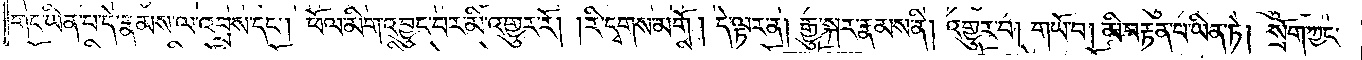གང་ཡིན་པ་དེ་རྣམས་ལ་འབྲས་དང༌། ཕོལ་མིག་འབྱུང་བར་མི་འགྱུར་རོ། །རི་དྭགས་མགོ། དེ་ལྟར་ན། རྒྱུ་སྐར་རྣམས་ནི། འགྱུར་བ། གཡོ་བ། མི་བརྟན་པ་ཡིན་ཏེ། སྲོག་ཀྱང་
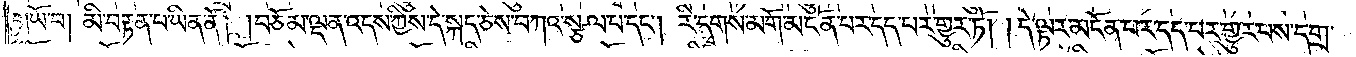གཡོ་བ། མི་བརྟན་པ་ཡིན་ནོ། །བཅོམ་ལྡན་འདས་ཀྱིས་དེ་སྐད་ཅེས་བཀའ་སྩལ་པ་དང༌། རི་དྭགས་མགོ་མངོན་པར་དད་པར་གྱུར་ཏོ། །དེ་ལྟར་མངོན་པར་དད་པར་གྱུར་པས་དགྲ་
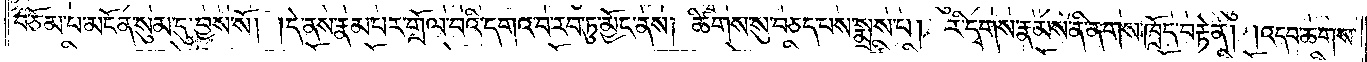བཅོམ་པ་མངོན་སུམ་དུ་བྱས་སོ། །དེ་ནས་རྣམ་པར་གྲོལ་བའི་དགའ་བ་རབ་ཏུ་མྱོང་ནས། ཚིགས་སུ་བཅད་པས་སྨྲས་པ། རི་དྭགས་རྣམས་ནི་ནགས་ཁྲོད་བརྟེན། །འདབ་ཆགས་
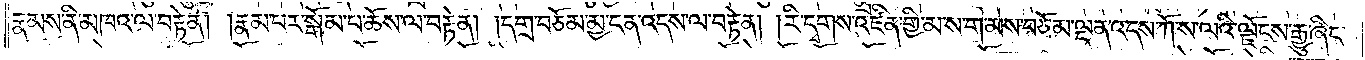རྣམས་ནི་མཁའ་ལ་བརྟེན། །རྣམ་པར་སྒོམ་པ་ཆོས་ལ་བརྟེན། །དགྲ་བཅོམ་མྱ་ངན་འདས་ལ་བརྟེན། །རི་དྭགས་འཛིན་གྱི་མ་ས་ག་མས་བཅོམ་ལྡན་འདས་ཀོ་ས་ལའི་ལྗོངས་རྒྱུ་ཞིང་
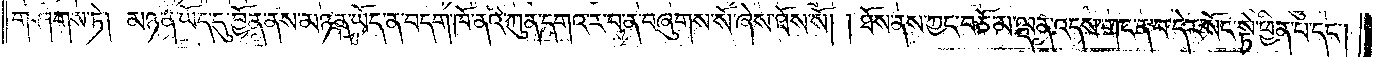གཤེགས་ཏེ། མཉན་ཡོད་དུ་བྱོན་ནས་མཉན་ཡོད་ན་བདག་ཁོ་ནའི་ཀུན་དགའ་ར་བ་ན་བཞུགས་པོ་ཞེས་ཐོས་སོ། །ཐོས་ནས་ཀྱང་བཅོམ་ལྡན་འདས་གང་ན་བ་དེར་སོང་སྟེ་ཕྱིན་པ་དང༌།
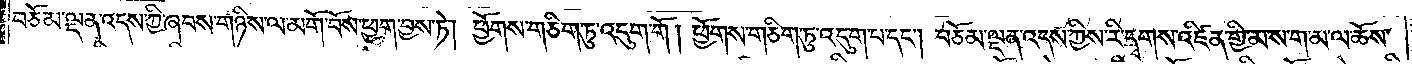བཅོམ་ལྡན་འདས་ཀྱི་ཞབས་གཉིས་ལ་མགོ་བོས་ཕྱག་བྱས་ཏེ། ཕྱོགས་གཅིག་ཏུ་འདུག་གོ །ཕྱོགས་གཅིག་ཏུ་འདུག་པ་དང༌། བཅོམ་ལྡན་འདས་ཀྱིས་རི་དྭགས་འཛིན་གྱི་མ་ས་ག་མ་ལ་ཆོས་
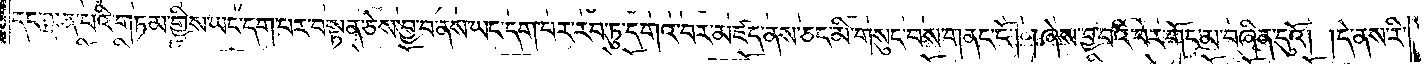དང་ལྡན་པའི་གཏམ་གྱིས་ཡང་དག་པར་བསྟན་ཅེས་བྱ་བ་ནས་ཡང་དག་པར་རབ་ཏུ་དགའ་བར་མཛད་ནས་ཅང་མི་གསུང་བས་གནང་ངོ༌། །ཞེས་བྱ་བའི་བར་གོང་མ་བཞིན་དུའོ། །དེ་ནས་རི་
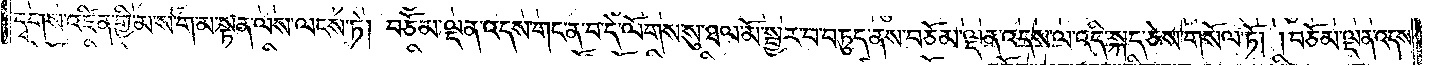དྭགས་འཛིན་གྱི་མ་ས་ག་མ་སྟན་ལས་ལངས་ཏེ། བཅོམ་ལྡན་འདས་གང་ན་བ་དེ་ལོགས་སུ་ཐལ་མོ་སྦྱར་བ་བཏུད་ནས་བཅོམ་ལྡན་འདས་ལ་འདི་སྐད་ཅེས་གསོལ་ཏོ། །བཅོམ་ལྡན་འདས་
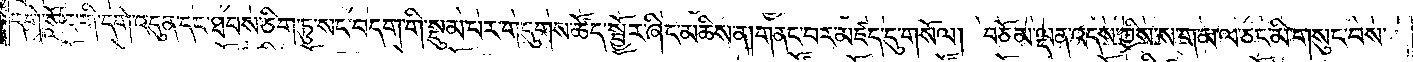དགེ་སློང་གི་དགེ་འདུན་དང་ཐབས་ཅིག་ཏུ་སང་བདག་གི་སྡུམ་པར་གདུགས་ཚོད་སྦྱོར་ཞིང་མཆིས་ན། གནང་བར་མཛད་དུ་གསོལ། བཅོམ་ལྡན་འདས་ཀྱིས་ས་ག་མ་ལ་ཅང་མི་གསུང་བས་
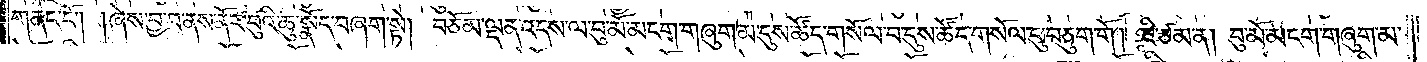གནང་ངོ༌། །ཞེས་བྱ་བ་ནས་ནོར་བུའི་ཆུ་སྣོད་བཞག་སྟེ། བཅོམ་ལྡན་འདས་ལ་བུ་མོ་མངག་གཞུག་མ་དུས་ཚོད་གསོལ་བ་དུས་ཚོད་གསོལ་དུ་བཅུག་གོ །ཇི་ཙམ་ན། བུ་མོ་མངག་གཞུག་མ་
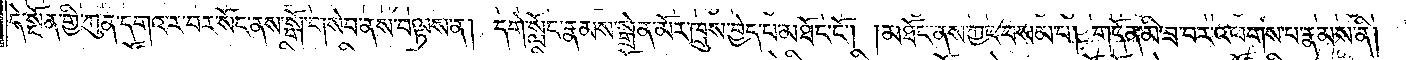དེ་སྔོན་གྱི་ཀུན་དགའ་ར་བར་སོང་ནས་སྒོ་གསེབ་ནས་བལྟས་ན། དགེ་སློང་རྣམས་སྒྲེན་མོར་ཁྲུས་བྱེད་པ་མཐོང་ངོ༌། །མཐོང་ནས་ཀྱང་བསམ་པ། གདོན་མི་ཟ་བར་འཕགས་པ་རྣམས་ནི།
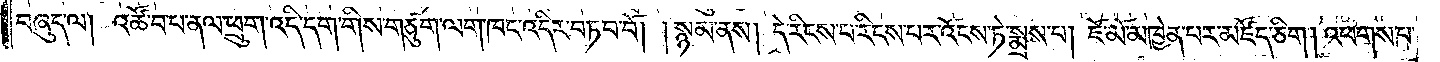བཞུད་ལ། འཚོ་བ་པ་ནལ་ཕྲུག་འདི་དག་གིས་གཙུག་ལག་ཁང་འདིར་བཏབ་བོ། །སྙམ་ནས། དེ་རིངས་པའི་ངས་པར་འོངས་ཏེ་སྨྲས་པ། ཇོ་མོ་མཁྱེན་པར་མཛོད་ཅིག །འཕགས་པ་
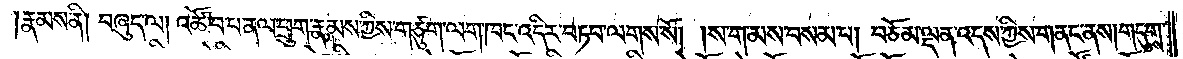།རྣམས་ནི། བཞུད་ལ། འཚོ་བ་པ་ནལ་ཕྲུག་རྣམས་ཀྱིས་གཙུག་ལག་ཁང་འདིར་བཏབ་ལགས་སོ། །ས་ག་མས་བསམ་པ། བཅོམ་ལྡན་འདས་ཀྱིས་གནང་ནས། གདུགས་
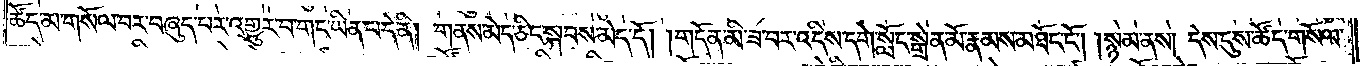ཚོད་མ་གསོལ་བར་བཞུད་པར་འགྱུར་བ་གང་ཡིན་པ་དེ་ནི། གནས་མེད་ཅིང་སྐབས་མེད་དོ། །གདོན་མི་ཟ་བར་འདིས་དགེ་སློང་སྒྲེན་མོ་རྣམས་མཐོང་ངོ༌། །སྙམ་ནས། དེས་དུས་ཚོད་གསོལ་
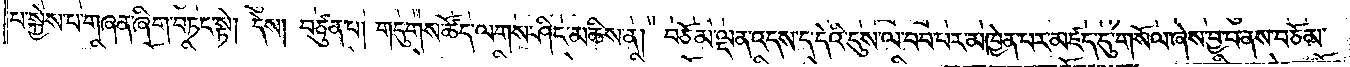པ་སྐྱེས་པ་གཞན་ཞིག་བཏང་སྟེ། དེས། བཙུན་པ། གདུགས་ཚོད་ལགས་ཤིང་མཆིས་ན། བཅོམ་ལྡན་འདས་ད་དེའི་དུས་ལ་བབ་པར་མཁྱེན་པར་མཛད་དུ་གསོལ་ཞེས་བྱ་བ་ནས་བཅོམ་
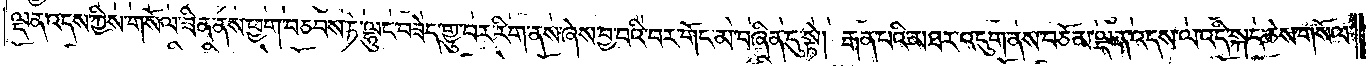ལྡན་འདས་ཀྱིས་གསོལ་ཟིན་ནས་ཕྱག་བཅབས་ཏེ་ལྷུང་བཟེད་གྱུ་བར་རིག་ནས་ཞེས་བྱ་བའི་བར་གོང་མ་བཞིན་དུ་སྟེ། རྒན་པའི་མཐར་འདུག་ནས་བཅོམ་ལྡན་འདས་ལ་འདི་སྐད་ཅེས་གསོལ་
